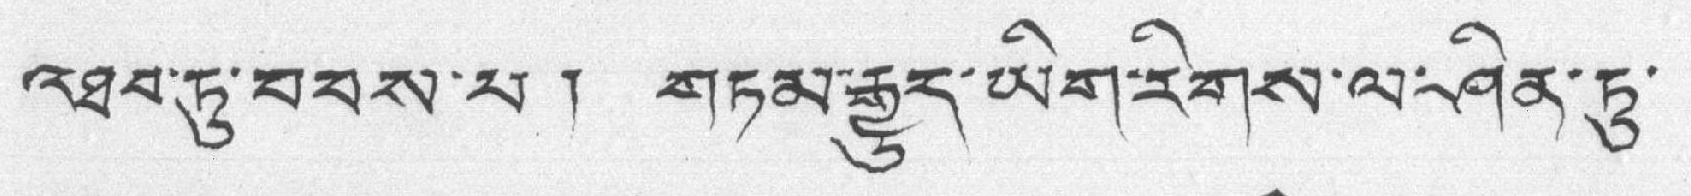འཐབ་ཏུ་བབས་པ། གཏམ་རྒྱུད་ཡིག་རིགས་ལ་ཤིན་ཏུ་
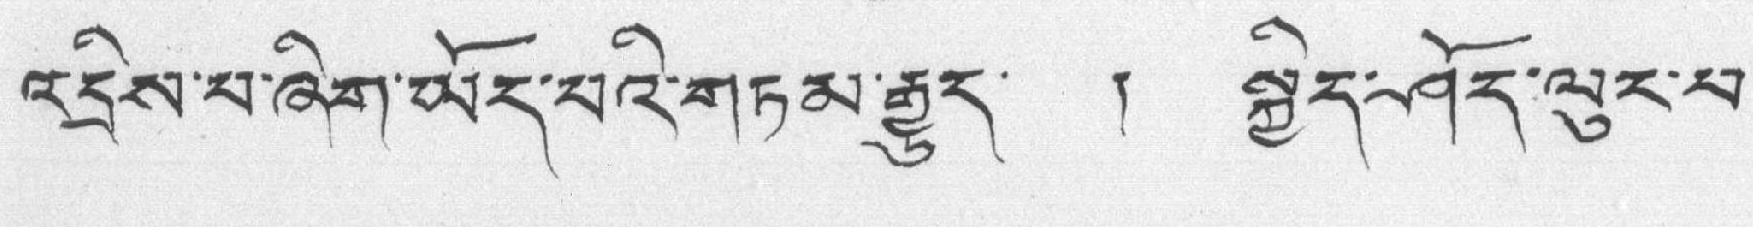འདྲིས་པ་ཞིག་ཡོད་པའི་གཏམ་རྒྱུད་ ། སྐྱེད་ཤོད་ལུང་པ་
